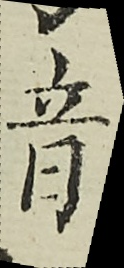音
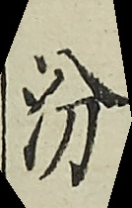汾
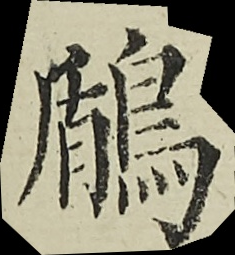鶞
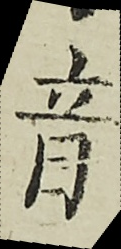音
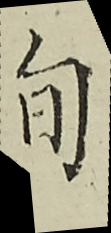旬
